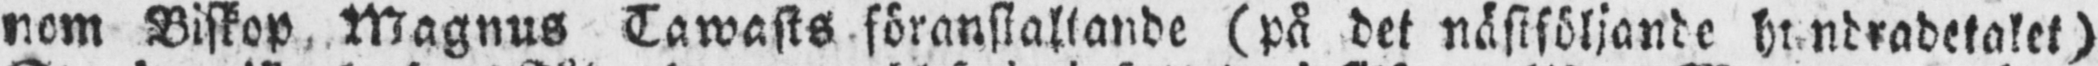nom Biskop, Magnus Tawasts föranstaltande (på det nästföljande hundradetalet)
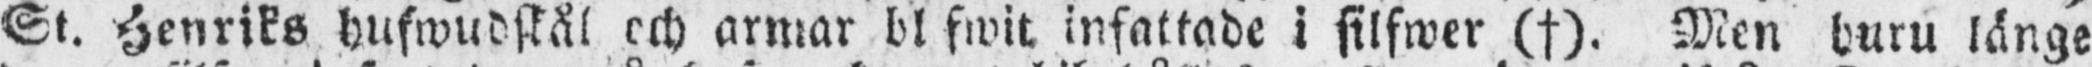St. Henriks hufwudskål och armar bl fwit infattade i silfwer (†). Men huru länge
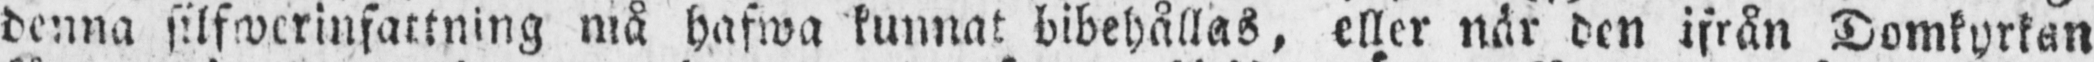denna silfwerinfattning må hafwa kunnat bibehållas, eller när den ifrån Domkyrkan
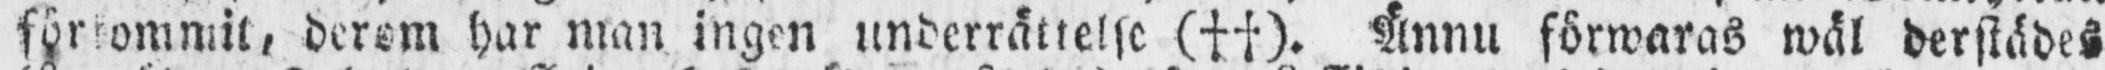förkommit, derom har man ingen underrättelse (††). Ännu förwaras wäl derstädes
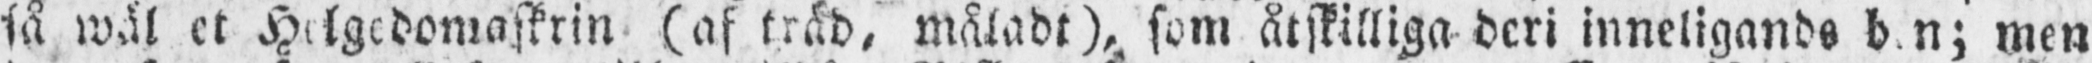så wäl et Helgedomaskrin (af träd, måladt), som åtskilliga deri inneligande ben; men
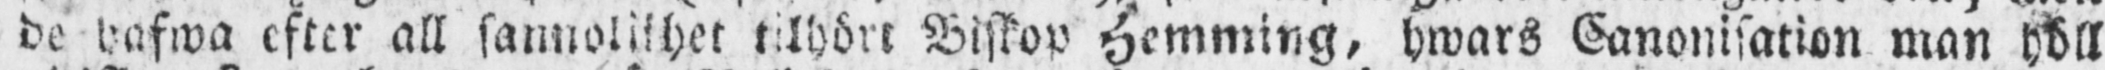de hafwa efter all sannolikhet tilhörd Biskop Hemming, hwars Canonisation man höll
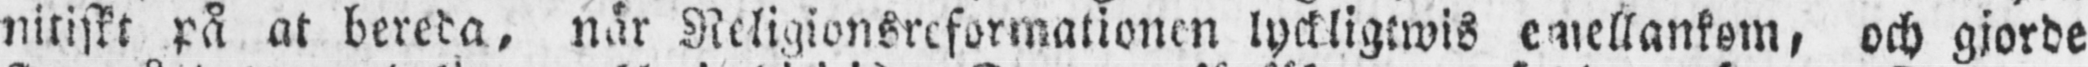nitiskt på at bereda, när Religionsreformationen lyckligtwis emellankom, och gjorde
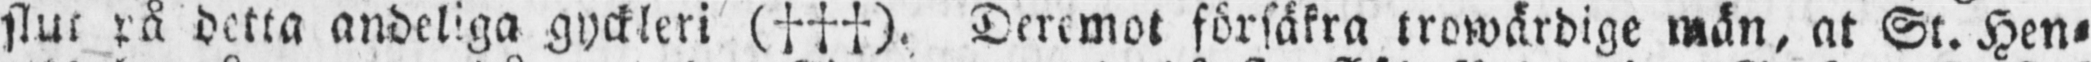slut på detta andeliga gyckleri (†††). Deremot försäkra trowärdige män, at St. Hen-
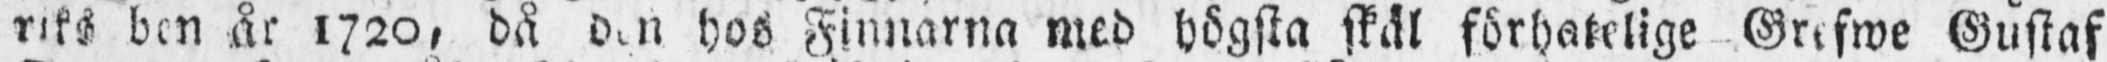riks ben år 1720, då den hos Finnarna med högsta skäl förhatelige Grefwe Gustaf
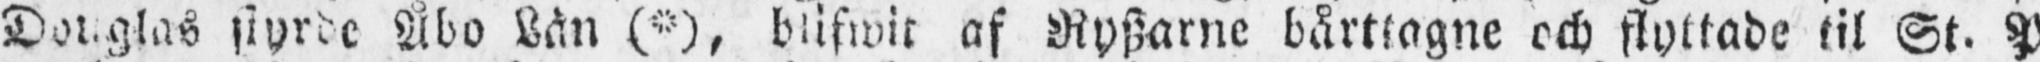Douglas styrde Åbo Län (*), blifwit af Ryszarne bårttagne och flyttade til St. Pe-
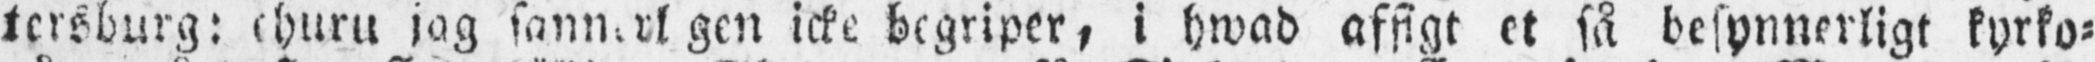tersburg: (huru jag sannerligen icke begriper, i hwad afsigt et så besynnerligt kyrko-
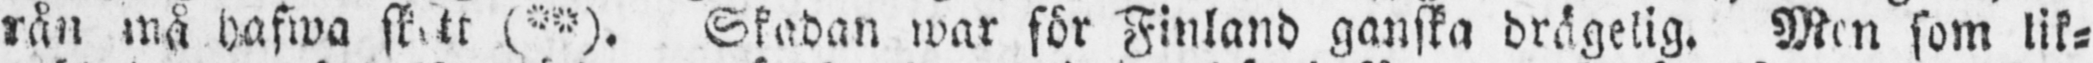rån må hafwa skett (**). Skadan war för Finland ganska drägelig. Men som lik-
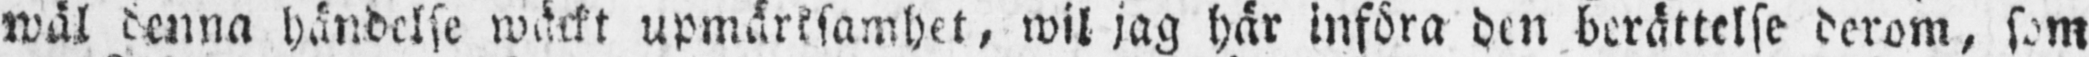wäl denna händelse wäckt upmärksamhet, wil jag här införa den berättelse derom, som
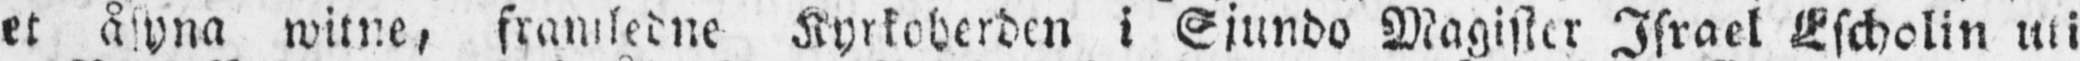et åsyna witne, framledne Kyrkoherden i Sjundo Magister Israel Escholin uti
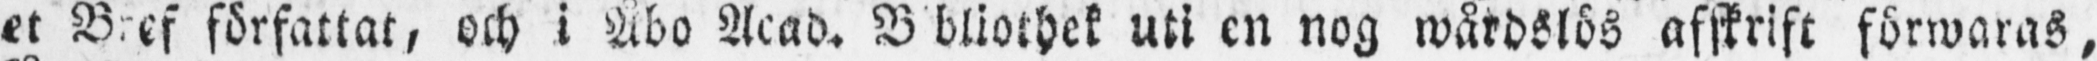et Bref författat, och i Åbo Acad. Bibliothek uti en nog wårdslös afskrift förwaras,
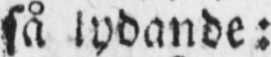så lydande:
